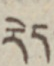རེད།
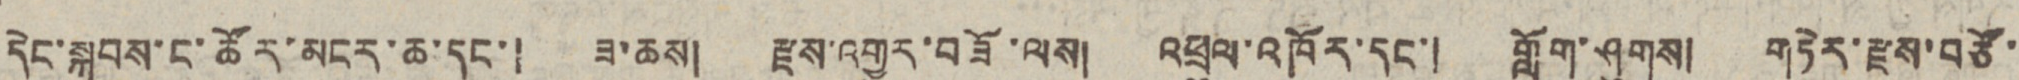དེང་སྐབས་ང་ཚོར་མངར་ཆ་དང་། ཟ་ཆས། རྫས་འགྱུར་བཟོ་ལས། འཕྲུལ་འཁོར་དང་། གློག་ཤུགས། གཏེར་རྫས་བཙོ་
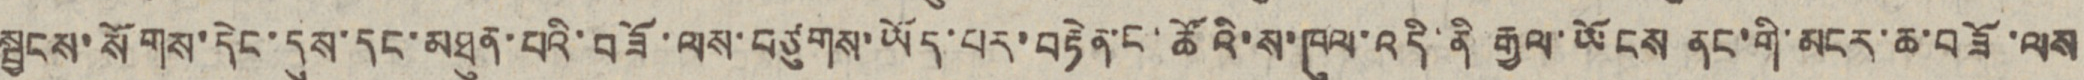སྦྱངས་སོགས་དེང་དུས་དང་མཐུན་པའི་བཟོ་ལས་བཙུགས་ཡོད་པར་བརྟེན་ང་ཚོའི་ས་ཁུལ་འདི་ནི རྒྱལ་ཡོངས ནང་གི་མངར་ཆ་བཟོ་ལས
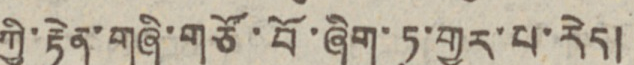ཀྱི་རྟེན་གཞི་གཙོ་བོ་ཞིག་ཏུ་གྱུར་པ་རེད།
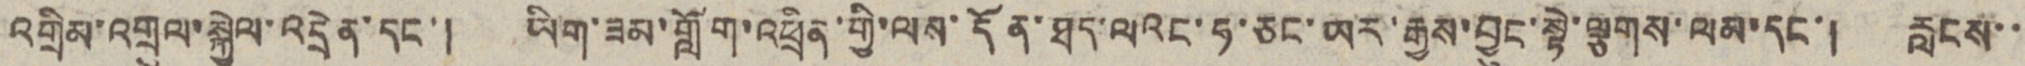འགྲིམ་འགྲུལ་སྐྱེལ་འདྲེན་དང་། ཡིག་ཟམ་གློག་འཕྲིན་གྱི་ལས་དོན་ཐད་ལའང་ཧ་ཅང་ཡར་རྒྱས་བྱུང་སྟེ་ལྕགས་ལམ་དང་། རླངས་་
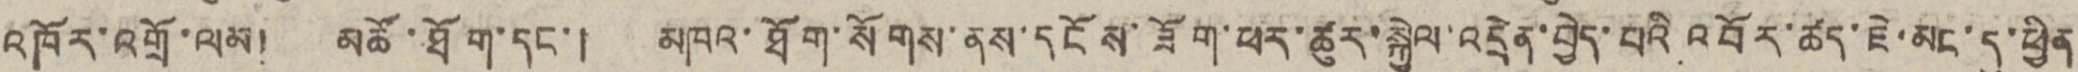འཁོར་འགྲོ་ལམ། མཚོ་ཐོག་དང་། མཁའ་ཐོག་སོགས་ནས་དངོས་ཟོག་ཕར་ཚུར་སྐྱེལ་འདྲེན་བྱེད་པའི འབོར་ཚད་ཇེ་མང་དུ་ཕྱིན
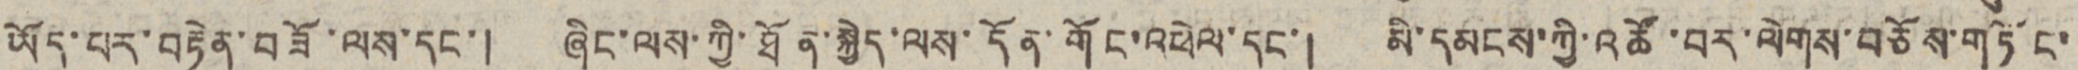ཡོད་པར་བརྟེན་བཟོ་ལས་དང་། ཞིང་ལས་ཀྱི་ཐོན་སྐྱེད་ལས་དོན་གོང་འཕེལ་དང་། མི་དམངས་ཀྱི་འཚོ་བར་ལེགས་བཅོས་གཏོང་
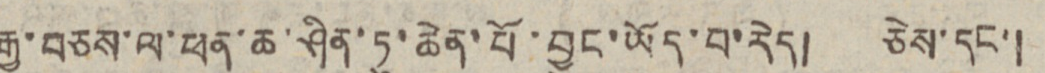རྒྱུ་བཅས་ལ་ཕན་ཆ་ཤིན་ཏུ་ཆེན་པོ་བྱུང་ཡོད་པ་རེད། ཅེས་དང་།
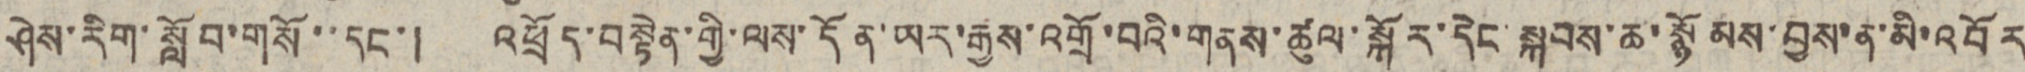ཤེས་རིག་སློབ་གསོ་་དང་། འཕྲོད་བསྟེན་གྱི་ལས་དོན་ཡར་རྒྱས་འགྲོ་བའི་གནས་ཚུལ་སྐོར་དེང་སྐབས་ཆ་སྙོམས་བྱས་ན་མི་འབོར
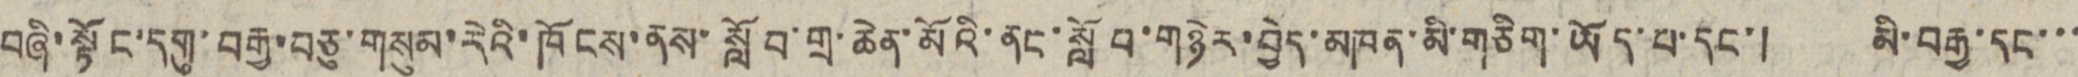བཞི་སྟོང་དགུ་བརྒྱ་བཅུ་གསུམ་རེའི་ཁོངས་ནས་སློབ་གྲ་ཆེན་མོའི་ནང་སློབ་གཉེར་བྱེད་མཁན་མི་གཅིག་ཡོད་པ་དང་། མི་བརྒྱ་དང་་་
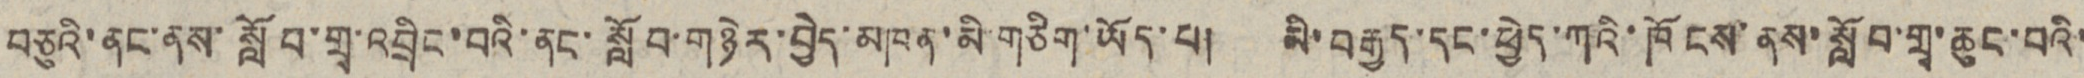བཅུའི་ནང་ནས་སློབ་གྲྭ་འབྲིང་བའི་ནང་སློབ་གཉེར་བྱེད་མཁན་མི་གཅིག་ཡོད་པ། མི་བརྒྱད་དང་ཕྱེད་ཀའི་ཁོངས་ནས་སློབ་གྲྭ་ཆུང་བའི་
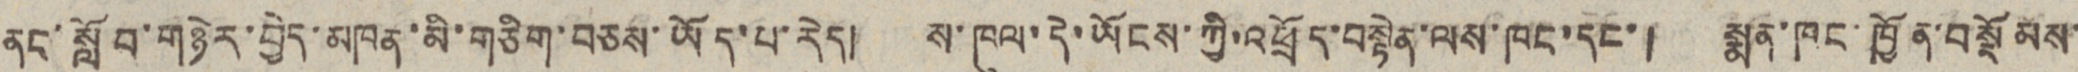ནང་སློབ་གཉེར་བྱེད་མཁན་མི་གཅིག་བཅས་ཡོད་པ་རེད། ས་ཁུལ་དེ་ཡོངས་ཀྱི་འཕྲོད་བསྟེན་ལས་ཁང་དང་། སྨན་ཁང་ཁྱོན་བསྡོམས་
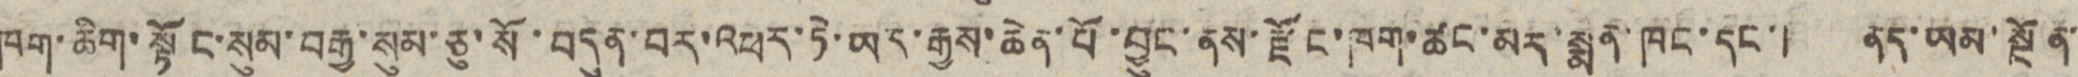ཁག་ཆིག་སྟོང་སུམ་བརྒྱ་སུམ་ཅུ་སོ་བདུན་བར་འཕར་ཏེ་ཡར་རྒྱས་ཆེན་པོ་བྱུང་ནས་རྫོང་ཁག་ཚང་མར་སྨན་ཁང་དང་། ནད་ཡམ་སྔོན་
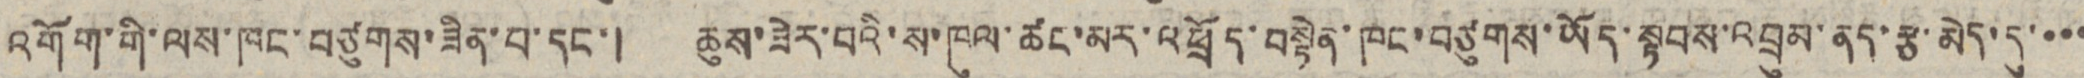འགོག་གི་ལས་ཁང་བཙུགས་ཟིན་པ་དང་། ཆུས་ཟེར་བའི་ས་ཁུལ་ཚང་མར་འཕྲོད་བསྟེན་ཁང་བཙུགས་ཡོད་སྟབས་འབྲུམ་ནད་རྩ་མེད་དུ་་་་
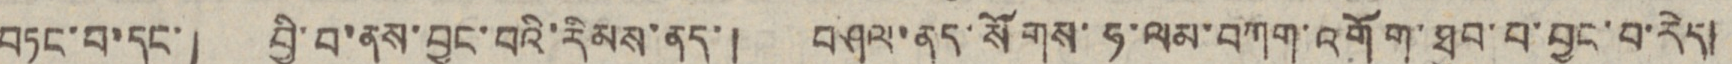བཏང་བ་དང་། བྱི་བ་ནས་བྱུང་བའི་རིམས་ནད་། བཤལ་ནད་སོགས་ཧ་ལམ་བཀག་འགོག་ཐུབ་པ་བྱུང་བ་རེད།
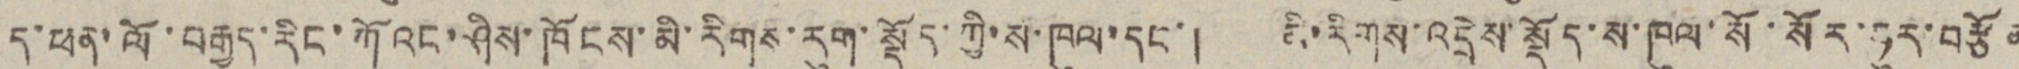ད་ཕན་ལོ་བརྒྱད་རིང་ཀོའང་ཤིས་ཁོངས་མི་རིགས་རུག་སྡོད་ཀྱི་ས་ཁུལ་དང་། མི་རིགས་འདྲེས་སྡོད་ས་ཁུལ་སོ་སོར་ཧུར་བརྩོན
